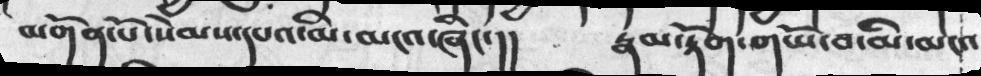མགོན་པོ་སེམས་དཔའ་མི་མངའ་ཞིང་།།   རྣམ་རྟོག་གཡོ་བ་མི་མངའ
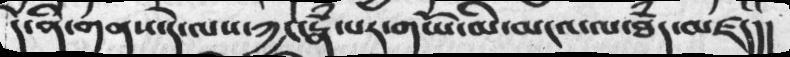དེ་ནི་གནས་དེ་ལས་ཀྱང་རྣཾ་པར་གཡོ་མི་མངའ་ལ་ཐཾད་མཛད།།
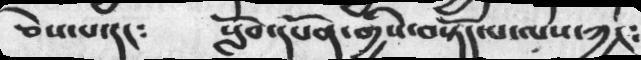ཅེས་པ་དང༴  སློབ་དཔོན་གྱིས་བསྟོད་པ་ལས་ཀྱང༴
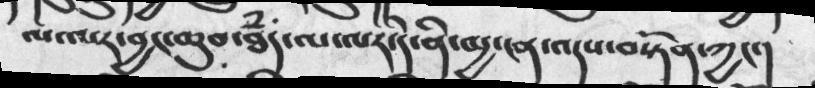ལ་ལར་བྱང་ཆུབ་ཐཾད་ལ་ལར་དེ་ནི་མྱ་ངན་འདས་བསྟོན་ཀྱང་།
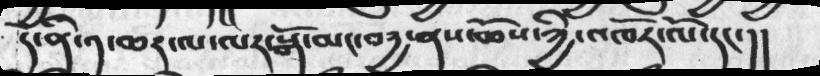དེ་ནི་༡་ཆར་ལ་ལར་སྒོ་མང་བདྱ་ནས་ཆོས་ཀྱི་འཁོར་ལོ་དང་།།
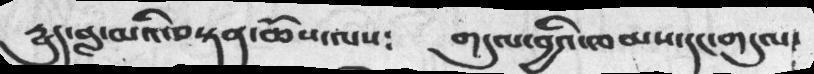དྱུད་བླ་མའི་བསྟན་ཆོས་ལས༴  གདུལ་བྱའི་ཁམས་དང་གདུལ་
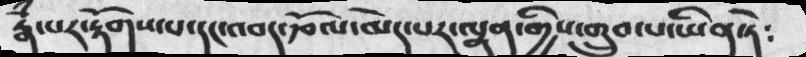རྣཾ་པར་རྟོགས་པ་དང་འབད་རྩོལ་མེད་པར་ལྷུན་གྱིས་གྲུབ་པ་ཡིན་ཏེ༴
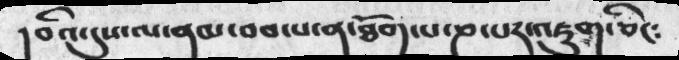། བའི་དུས་ལ་ནམ་བབ་པ་ན་ཐོག་པ་ཎ་པར་འཇུག་ཅིང༴
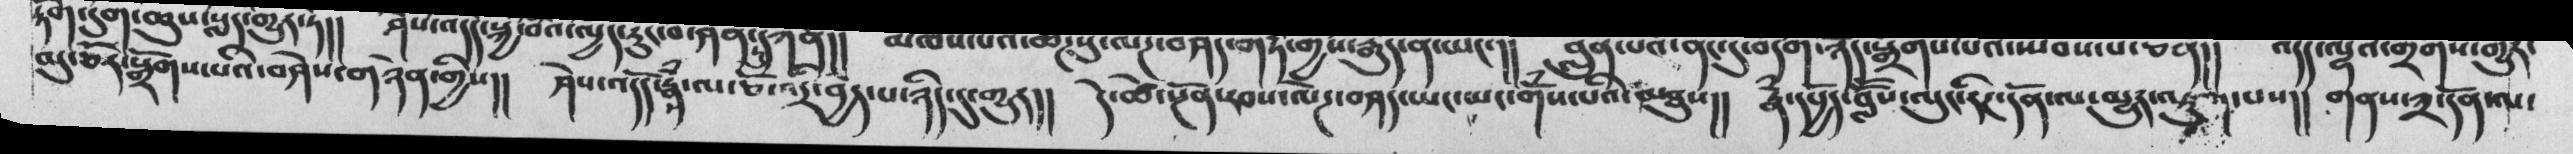མུ་ཅོར་སྒྲོགས་པའི་བཤེས་གཉེན་གྱིས།།  ཤེས་འདོད་རྣཾ་ལ་ཅོ་འདྲི་བྱེ་པ་ཉིད་དུ་གྱུར།།  དེ་ཚེ་སྔོན་རབས་ལེཌ་བཤད་ཡང་ཡང་གོཾས་པའི་མཐུས།།  རྣཾ་དཔྱོད་བློོས་ལུང་རིཌ་དོན་ལ་མྱུར་འཇུག་པས།།  གནས་༣་དོན་ལ་
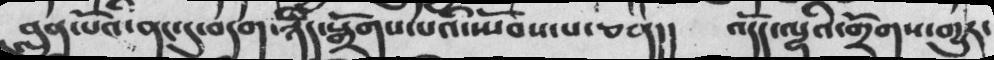བླུན་པོའི་ནང་དུ་བདག་ཉིད་སྒྲོགས་པའི་སྤོབས་ཅན།།  འདོད་ལྷའི་གྲོགས་གྱུར་
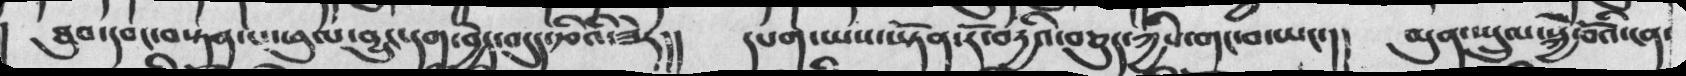ཐུབ་དབང་བསྟན་པ་ཕུལ་བྱུང་དག་བྱེད་བདུད་རྩིའི་ཟེར།།  དཔག་ཡས་ཡྟོན་རོ་བདྱའི་བཅུད་ཀྱིས་གང་བ་ཡང་།།  མུན་སྤྲུལ་སྐྱེ་བོའི་ངན་
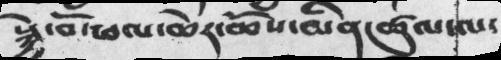སྐྱེ་བོ་ཕལ་ཆེར་ཆོས་མིན་ཚུལ་ལ་
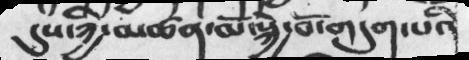དུས་ཀྱི་མཚན་མོ་སྐྱེ་བོ་གདུག་པའི
